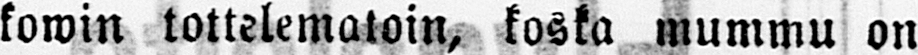kowin tottelematoin, koska mummu on
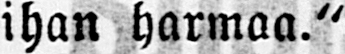ihan harmaa."
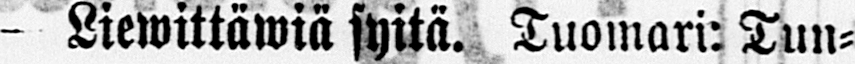- Liewittäwiä syitä. Tuomari: Tun-
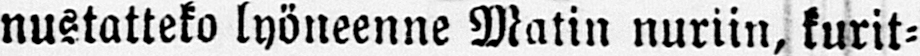nustatteko lyöneenne Matin nuriin, kurit-
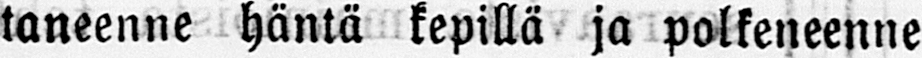taneenne häntä kepillä ja polkeneenne
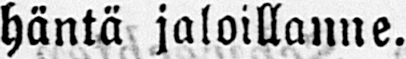häntä jaloillanne.
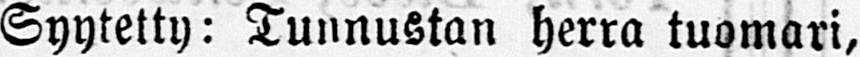Syytetty: Tunnustan herra tuomari,
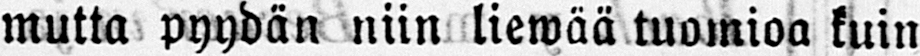mutta pyydän niin liewää tuomioa kuin
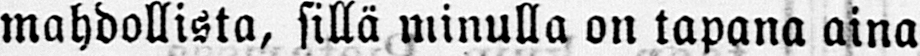mahdollista, sillä minulla on tapana aina
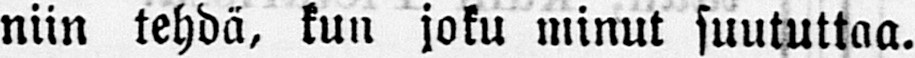niin tehdä, kun joku minut suututtaa.
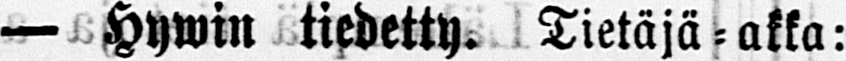- Hywin tiedetty. Tietäjä-akka:
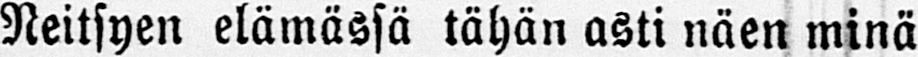Neitsyen elämässä tähän asti näen minä
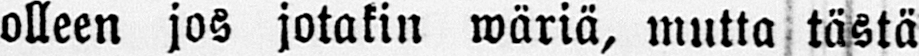olleen jos jotakin wäriä, mutta tästä
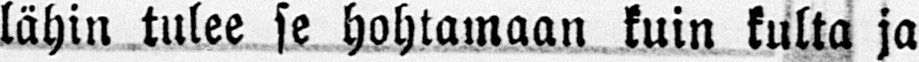lähin tulee se hohtamaan kuin kulta ja
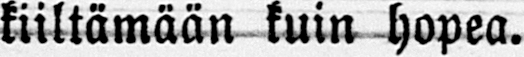kiiltämään kuin hopea.
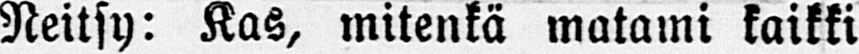Neitsy: Kas, mitenkä matami kaikki
